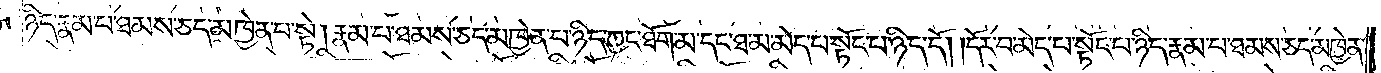ཉིད་རྣམ་པ་ཐམས་ཅད་མཁྱེན་པ་སྟེ། རྣམ་པ་ཐམས་ཅད་མཁྱེན་པ་ཉིད་ཀྱང་ཐོག་མ་དང་ཐ་མ་མེད་པ་སྟོང་པ་ཉིད་དོ། །དོར་བ་མེད་པ་སྟོང་པ་ཉིད་རྣམ་པ་ཐམས་ཅད་མཁྱེན་
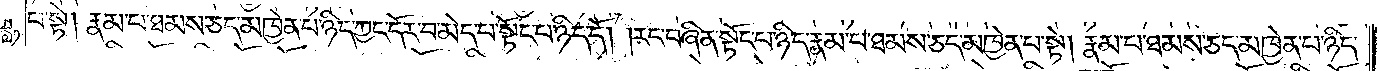པ་སྟེ། རྣམ་པ་ཐམས་ཅད་མཁྱེན་པ་ཉིད་ཀྱང་དོར་བ་མེད་པ་སྟོང་པ་ཉིད་དོ། །རང་བཞིན་སྟོང་པ་ཉིད་རྣམ་པ་ཐམས་ཅད་མཁྱེན་པ་སྟེ། རྣམ་པ་ཐམས་ཅད་མཁྱེན་པ་ཉིད་
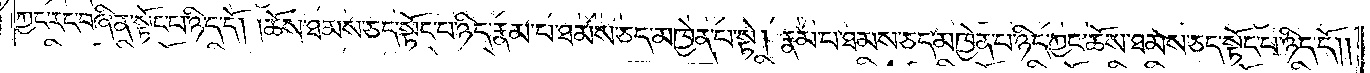ཀྱང་རང་བཞིན་སྟོང་པ་ཉིད་དོ། །ཆོས་ཐམས་ཅད་སྟོང་པ་ཉིད་རྣམ་པ་ཐམས་ཅད་མཁྱེན་པ་སྟེ། རྣམ་པ་ཐམས་ཅད་མཁྱེན་པ་ཉིད་ཀྱང་ཆོས་ཐམས་ཅད་སྟོང་པ་ཉིད་དོ༎
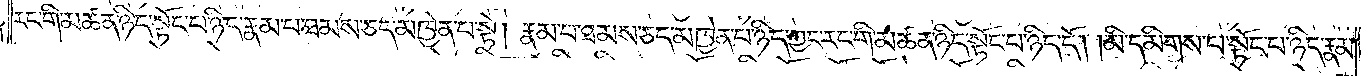རང་གི་མཚན་ཉིད་སྟོང་པ་ཉིད་རྣམ་པ་ཐམས་ཅད་མཁྱེན་པ་སྟེ། རྣམ་པ་ཐམས་ཅད་མཁྱེན་པ་ཉིད་ཀྱང་རང་གི་མཚན་ཉིད་སྟོང་པ་ཉིད་དོ། །མི་དམིགས་པ་སྟོང་པ་ཉིད་རྣམ་
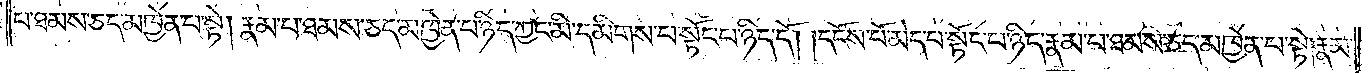པ་ཐམས་ཅད་མཁྱེན་པ་སྟེ། རྣམ་པ་ཐམས་ཅད་མཁྱེན་པ་ཉིད་ཀྱང་མི་དམིགས་པ་སྟོང་པ་ཉིད་དོ། །དངོས་པོ་མེད་པ་སྟོང་པ་ཉིད་རྣམ་པ་ཐམས་ཅད་མཁྱེན་པ་སྟེ། རྣམ་
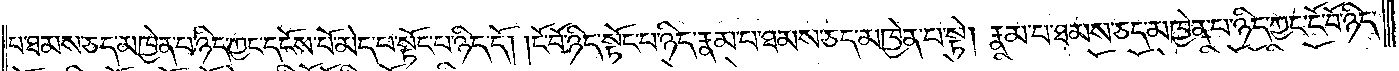པ་ཐམས་ཅད་མཁྱེན་པ་ཉིད་ཀྱང་དངོས་པོ་མེད་པ་སྟོང་པ་ཉིད་དོ། །ངོ་བོ་ཉིད་སྟོང་པ་ཉིད་རྣམ་པ་ཐམས་ཅད་མཁྱེན་པ་སྟེ། རྣམ་པ་ཐམས་ཅད་མཁྱེན་པ་ཉིད་ཀྱང་ངོ་བོ་ཉིད་
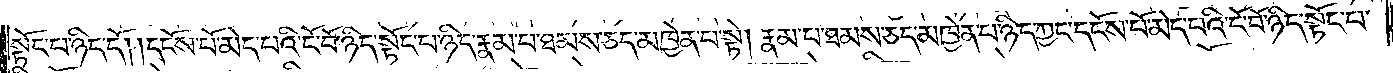སྟོང་པ་ཉིད་དོ། །དངོས་པོ་མེད་པའི་ངོ་བོ་ཉིད་སྟོང་པ་ཉིད་རྣམ་པ་ཐམས་ཅད་མཁྱེན་པ་སྟེ། རྣམ་པ་ཐམས་ཅད་མཁྱེན་པ་ཉིད་ཀྱང་དངོས་པོ་མེད་པའི་ངོ་བོ་ཉིད་སྟོང་པ་
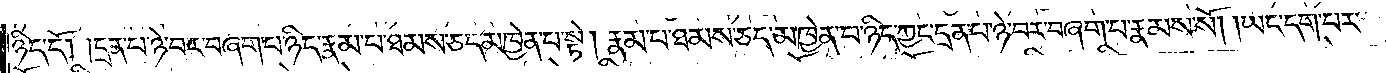ཉིད་དོ། །དྲན་པ་ཉེ་བར་བཞག་པ་ཉིད་རྣམ་པ་ཐམས་ཅད་མཁྱེན་པ་སྟེ། རྣམ་པ་ཐམས་ཅད་མཁྱེན་པ་ཉིད་ཀྱང་དྲན་པ་ཉེ་བར་བཞག་པ་རྣམས་སོ། །ཡང་དག་པར་
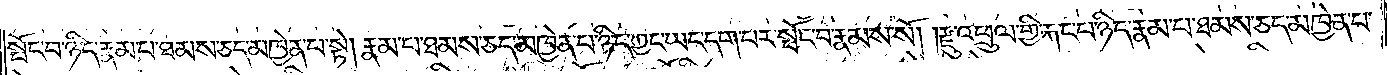སྤོང་བ་ཉིད་རྣམ་པ་ཐམས་ཅད་མཁྱེན་པ་སྟེ། རྣམ་པ་ཐམས་ཅད་མཁྱེན་པ་ཉིད་ཀྱང་ཡང་དག་པར་སྤོང་བ་རྣམས་སོ། །རྫུ་འཕྲུལ་གྱི་རྐང་པ་ཉིད་རྣམ་པ་ཐམས་ཅད་མཁྱེན་པ་
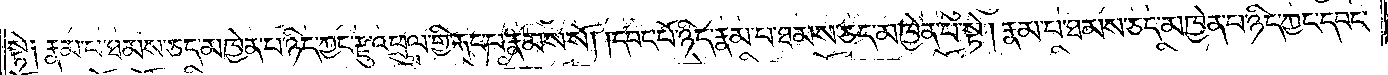སྟེ༑ རྣམ་པ་ཐམས་ཅད་མཁྱེན་པ་ཉིད་ཀྱང་རྫུ་འཕྲུལ་གྱི་རྐང་པ་རྣམས་སོ། །དབང་པོ་ཉིད་རྣམ་པ་ཐམས་ཅད་མཁྱེན་པ་སྟེ། རྣམ་པ་ཐམས་ཅད་མཁྱེན་པ་ཉིད་ཀྱང་དབང་
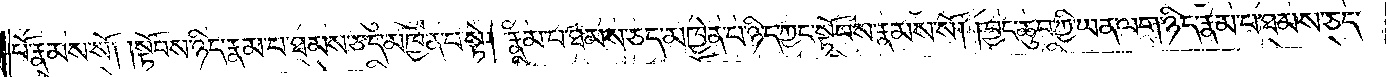པོ་རྣམས་སོ། །སྟོབས་ཉིད་རྣམ་པ་ཐམས་ཅད་མཁྱེན་པ་སྟེ། རྣམ་པ་ཐམས་ཅད་མཁྱེན་པ་ཉིད་ཀྱང་སྟོབས་རྣམས་སོ། །བྱང་ཆུབ་ཀྱི་ཡན་ལག་ཉིད་རྣམ་པ་ཐམས་ཅད་
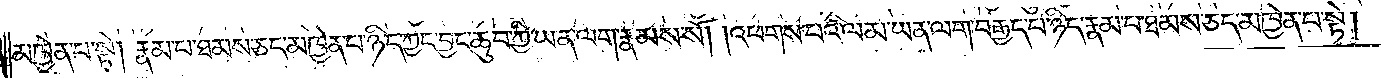མཁྱེན་པ་སྟེ། རྣམ་པ་ཐམས་ཅད་མཁྱེན་པ་ཉིད་ཀྱང་བྱང་ཆུབ་ཀྱི་ཡན་ལག་རྣམས་སོ། །འཕགས་པའི་ལམ་ཡན་ལག་བརྒྱད་པ་ཉིད་རྣམ་པ་ཐམས་ཅད་མཁྱེན་པ་སྟེ།
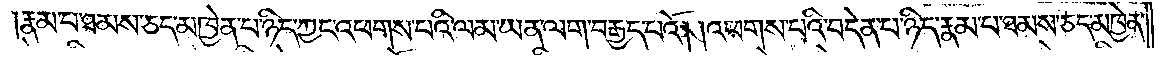རྣམ་པ་ཐམས་ཅད་མཁྱེན་པ་ཉིད་ཀྱང་འཕགས་པའི་ལམ་ཡན་ལག་བརྒྱད་པའོ། །འཕགས་པའི་བདེན་པ་ཉིད་རྣམ་པ་ཐམས་ཅད་མཁྱེན་
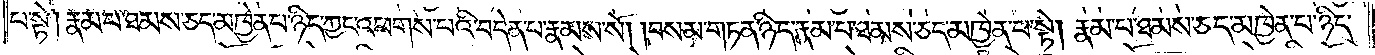པ་སྟེ། རྣམ་པ་ཐམས་ཅད་མཁྱེན་པ་ཉིད་ཀྱང་འཕགས་པའི་བདེན་པ་རྣམས་སོ། །བསམ་གཏན་ཉིད་རྣམ་པ་ཐམས་ཅད་མཁྱེན་པ་སྟེ། རྣམ་པ་ཐམས་ཅད་མཁྱེན་པ་ཉིད་
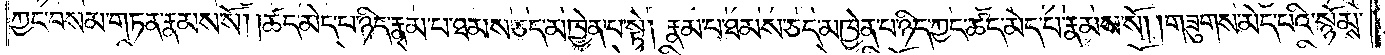ཀྱང་བསམ་གཏན་རྣམས་སོ། །ཚད་མེད་པ་ཉིད་རྣམ་པ་ཐམས་ཅད་མཁྱེན་པ་སྟེ། རྣམ་པ་ཐམས་ཅད་མཁྱེན་པ་ཉིད་ཀྱང་ཚད་མེད་པ་རྣམས་སོ། །གཟུགས་མེད་པའི་སྙོམས་
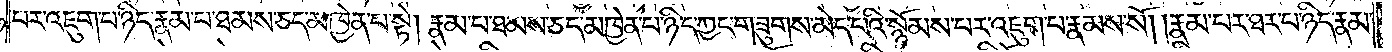པར་འཇུག་པ་ཉིད་རྣམ་པ་ཐམས་ཅད་མཁྱེན་པ་སྟེ། རྣམ་པ་ཐམས་ཅད་མཁྱེན་པ་ཉིད་ཀྱང་གཟུགས་མེད་པའི་སྙོམས་པར་འཇུག་པ་རྣམས་སོ། །རྣམ་པར་ཐར་པ་ཉིད་རྣམ་
